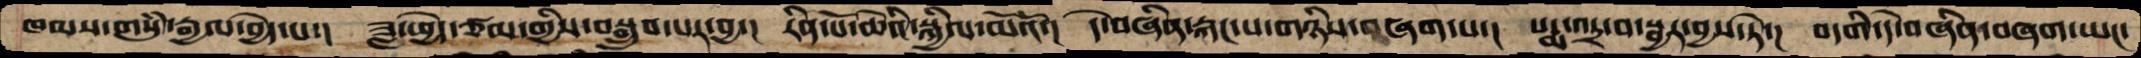ཁམས་གསུམ་རྒྱལ་བྱེད་པ་།   ཟླ་ཕྱེད་ཙམ་གྱིས་བསྒྲུབ་པར་བྱ་།  རིན་པོ་ཆེའི་སྐྱིལ་མོའོ་།  དེ་བཞིན་རྐང་པ་གཉིས་བཞག་པ་།  པདྨ་འདྲ་བ་སྦྱར་བྱས་ཏེ་།  བདགི་དེ་བཞིན་བཞག་ཡང་
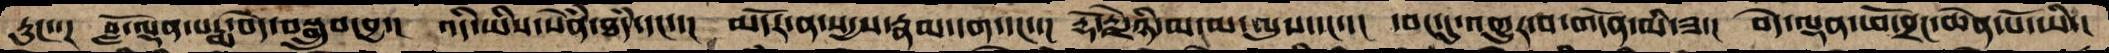རུང་་།   བློ་ལྡན་པདྨ་བདེ་བསྒྲུབ་བྱ་།  འདི་ཡིས་སེཾན་ཐཾད་དང་་།  མདོར་ན་སདྱས་རྣམ་དག་དང་་།  རྡོ་རྗེ་ཉི་མ་མངལ་ལུས་དང་་།  དབང་དུ་འགྱུར་བ་གདོན་མི་ཟ་།  བདེ་ལྡན་ཕོ་བྲང་ཆེན་པོ་ཡི་།
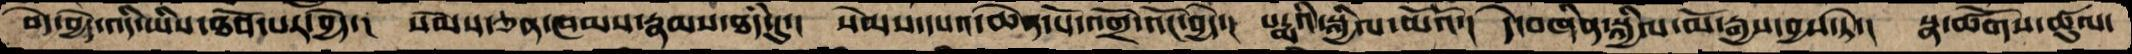བདེ་བྱེད་འདི་ཡིས་ཐོབ་པར་བྱེད་།  སེམས་ཅན་ཁམས་རྣམས་ཐཾད་དུ་།  སེམས་དཔའ་ཆེན་པོ་འགྲོ་འོང་བྱེད་།  པདྨའི་སྐྱིལ་མོའོ་།  དེ་བཞིན་སྐྱིལ་མོ་རྒྱས་བྱས་ཏེ་།  སྣ་ཚོགས་ཚུལ་
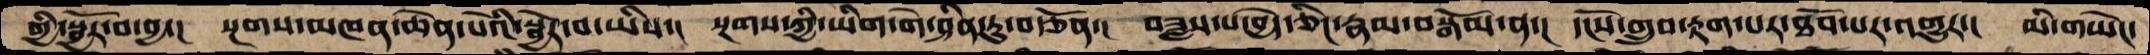གྱི་སྦྱོར་བ་བྱ་།  སྔགས་མཁན་ཆེན་པོའི་སྦྱོར་བ་ཡིས་།  སྔགས་ཀྱི་ཡིག་གེ་ཤིན་ཏུ་བརྩོན་།  བཟླས་པ་བྱེད་ཅིང་རྣམ་བསྒོམ་ན་།  དངོས་གྲུབ་རྟག་པར་ཐོབ་པར་འགྱུར་།  མི་གཡེང་
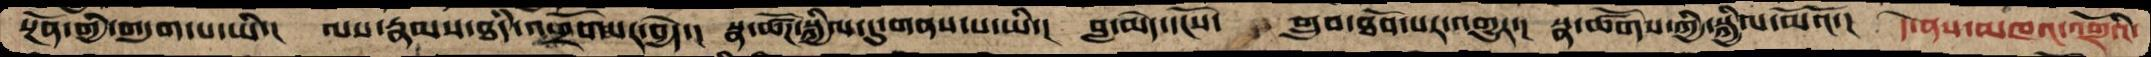སྔོན་གྱི་གདུག་པ་ཡི་།  ལས་རྣམས་ཐཾད་འགྲོས་པར་བྱེད་།  སྣ་ཚོཌ་སྐྱིལ་དུ་གནས་པ་ཡི་།  བླ་མེད་དངོས་   གྲུབ་ཐོབ་པར་འགྱུར་།  སྣ་ཚོགས་ཀྱི་སྐྱིལ་མོའོ་།  དེ་ནས་མཁའ་འགྲོའི་
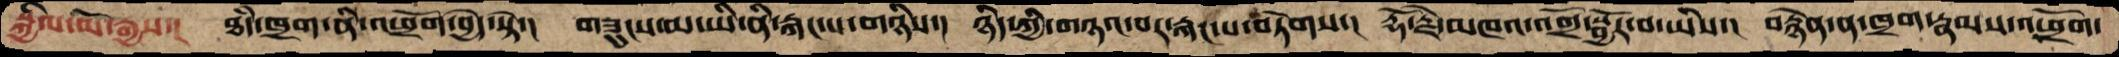སྐྱིལ་མོ་རྒྱས་།  ཐཾད་ཁྲག་ནི་འཕྲོག་བྱེད་སྟེ་།  གཟུངས་མ་ཡི་ནི་རྐང་པ་གཉིས་།  ཉིད་ཀྱི་གཉའ་བར་རྐང་པ་བཏེགས་།  རྡོ་རྗེ་མཁའ་འགྲོ་སྦྱོར་བ་ཡིས་།  བརྙེན་ན་ཁྲག་རྣམས་འཕྲོག་
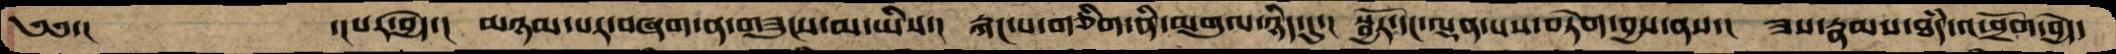༄༅་།    ་།པར་བྱེད་།  མཉམ་པར་བཞག་ན་གཟུངས་མ་ཡིས་།  རྐང་པ་གཅིག་ནི་མགུལ་ཉིད་དུ་།  སྦྱོར་དང་ལྡན་པས་བཏེག་བྱས་ནས་།  ཟས་རྣམས་ཐཾད་འཕྲོག་བྱེད་
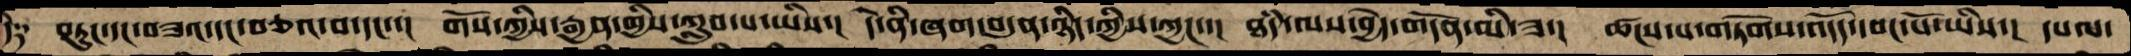དེ༑   བཏུང་དང་བཟའ་དང་བཅའ་བ་དང་་།  གོས་ཀྱིས་རྒྱན་གྱིས་ཀླུབ་པ་ཡིས་།  དེ་ནི་ཞག་བདུན་ཉིད་ཀྱིས་ཀྱང་་།  ཐཾད་ལས་བྱེད་གདོན་མི་ཟ་།  ཚངས་པ་གཏོགས་འདོད་དབང་པོ་ཡིས་།  དཔལ་
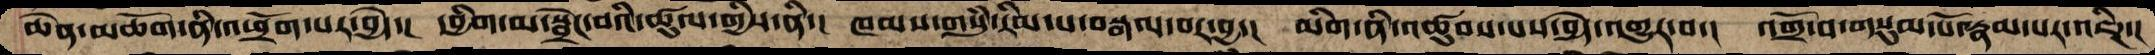ཆེན་མཆོག་ནི་འཕྲོག་པར་བྱེད་།  དབྱིག་མ་སྦྲེང་བའི་ཚུལ་གྱིས་ནི་།  ཁམས་གསུཾ་རིམ་པ་བརྒལ་བར་བྱ་།  མིག་ནི་འཚུབས་པས་བྱེད་འགྱུར་བ་།  འགྲོ་བ་གསུམ་པོ་རྣམ་པར་འཇིཌ་།
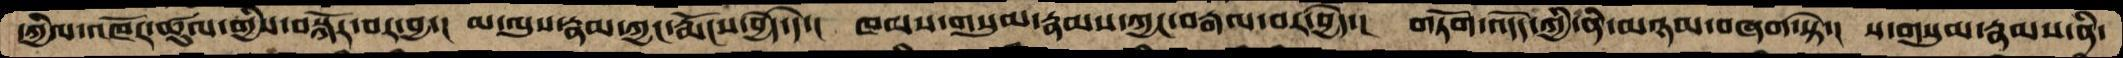དཀྱིལ་འཁོར་ཚུལ་གྱིས་བསྐོར་བར་བྱ་།  མ་ལུས་རྣམ་ཀྱང་རྨོངས་བྱེད་དེ་། ཁམས་གསུམ་རྣམས་ཀྱང་བརྒལ་བར་བྱེད་། གཏོག་འདོད་ཀྱི་ནི་མཉམ་བཞག་སྟེ་། ས་གསུམ་རྣམས་ནི་
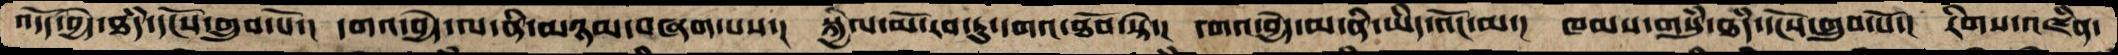འདོད་བྱེད་ཐཾད་དངོས་གྲུབ་པོ་།  དགའ་བྱེད་ལ་ནི་མཉམ་བཞག་པས་།  སྐྱིལ་མོ་རབ་ཏུ་དགའ་ཐོབ་སྟེ་།  དགའ་བྱེད་མ་ནི་ཡིད་འོང་མ་།  ཁམས་གསུཾ་ཐཾད་དངོས་གྲུབ་པོ་།  རིགས་འཛིན་
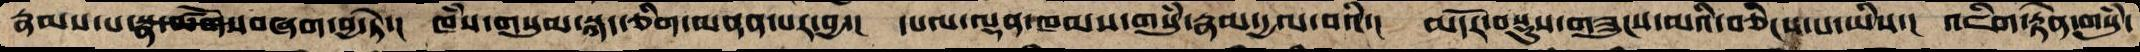རྣམས་པ་སྣ་ཚོགས་བཞག་བྱ་ཏེ་།  ཁཾས་གསུམ་སྐད་ཅིག་མནན་པར་བྱ་།  དཔལ་ལྡན་ཁམས་གསུཾ་རྣམ་དྱལ་བའི་།  མདོར་བསྡུས་གཟུངས་མའི་བཅིངས་པ་ཡིས་།  འཇིག་རྟེན་གསུཾ་
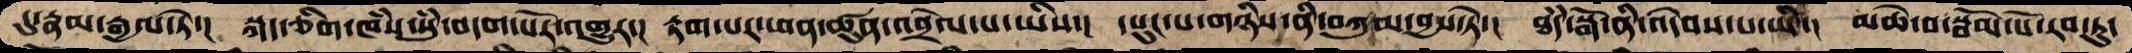དུ་རྣམ་རྒྱལ་ཏེ་།  སྐད་ཅིག་ཁཾས་སུཾ་བདག་པོར་འགྱུར་།  རྟག་པར་ཕན་ཚུན་འབྲེལ་པ་ཡིས་།  དཔུང་པ་གཉིས་ནི་བཀུམ་བྱས་ཏེ་།  ཐཾད་སྒོ་ནི་འདེབས་པ་ཡི་།  མཆེ་བ་སྦོམ་པོ་རབ་ཏུ་
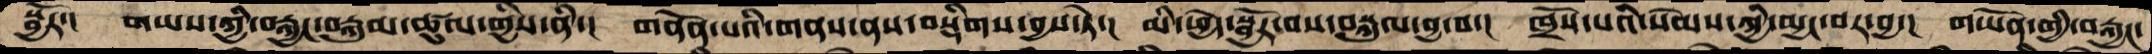སྦྱོར་།   གཡས་ཀྱི་བརྐྱང་བརྐུམ་ཚུལ་གྱིས་ནི་།   གནོན་པའི་གནས་ནས་བསྡིགས་བྱས་ཏེ་།  མི་ཕྱེད་སྦྱོར་བས་བསྐུལ་བྱ་བ་།  ཁྲོས་པའི་སེམས་ཀྱི་མྱང་བར་བྱ་།  གཡོན་གྱི་བརྐྱང་
